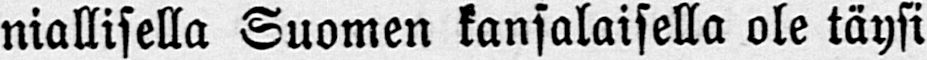niallisella Suomen kansalaisella ole täysi
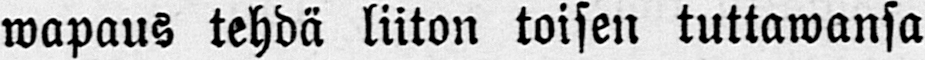wapaus tehdä liiton toisen tuttawansa
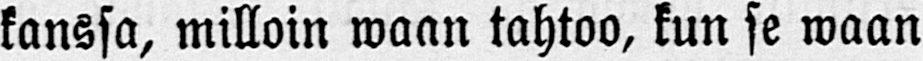kanssa, milloin waan tahtoo, kun se waan
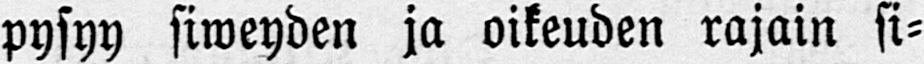pysyy siweyden ja oikeuden rajain si-
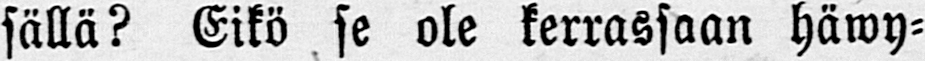sällä? Eikö se ole kerrassaan häwy-
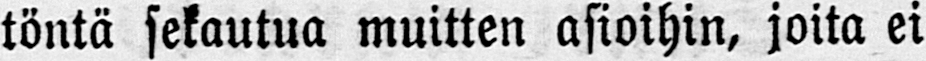töntä sekautua muitten asioihin, joita ei
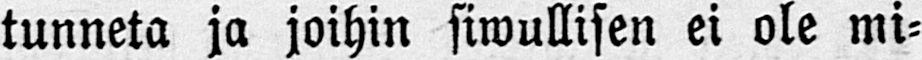tunneta ja joihin siwullisen ei ole mi-
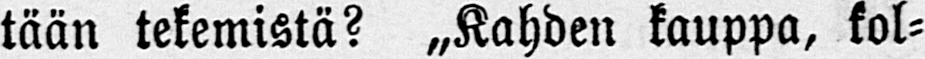tään tekemistä? „Kahden kauppa, kol-
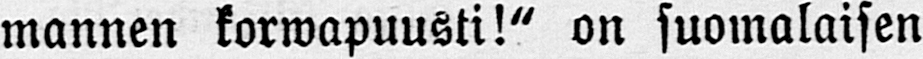mannen korwapuusti!" on suomalaisen
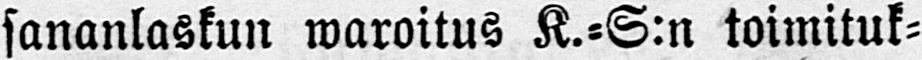sananlaskun waroitus K.-S:n toimituk-
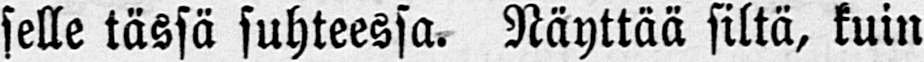selle tässä suhteessa. Näyttää siltä, kuin
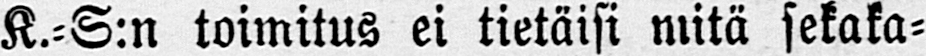K.-S:n toimitus ei tietäisi mitä sekaka-
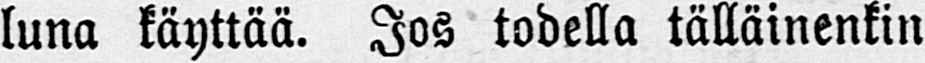luna käyttää. Jos todella tällainenkin
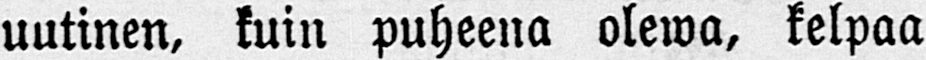uutinen, kuin puheena olewa, kelpaa
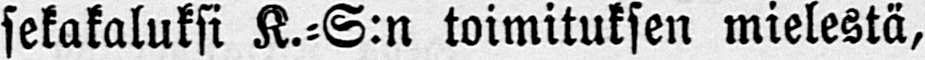sekakaluksi K.-S:n toimituksen mielestä,
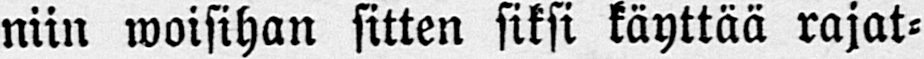niin woisihan sitten siksi käyttää rajat-
